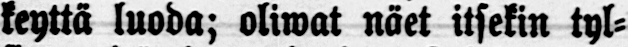keyttä luoda; oliwat näet itsekin tyl-
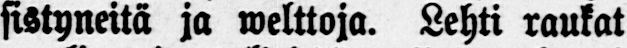sistyneitä ja welttoja. Lehti raukat
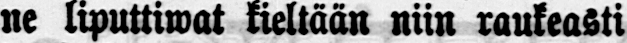ne liputtiwat kieltään niin raukeasti
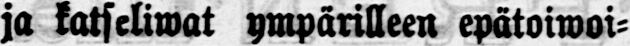ja katseliwat ympärilleen epätoiwoi-
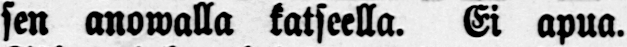sen anowalla katseella. Ei apua.
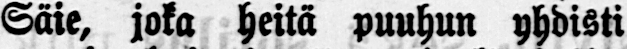Säie, joka heitä puuhun yhdisti
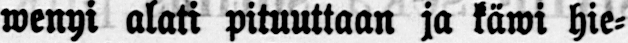wenyi alati pituuttaan ja käwi hie-
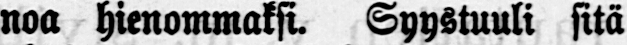noa hienommaksi. Syystuuli sitä
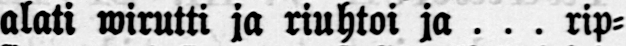alati virutti ja riuhtoi ja . . . rip-
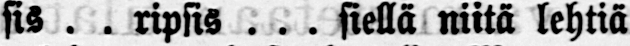sis . . ripsis . . . siellä niitä lehtiä
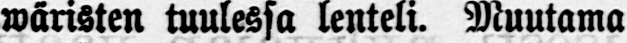wäristen tuulessa lenteli. Muutama
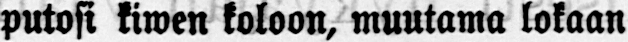putosi kiwen koloon, muutama lokaan
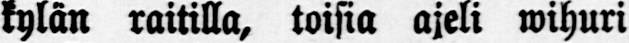kylän raitilla, toisia ajeli wihuri
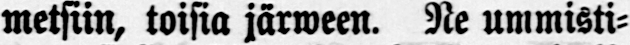metsiin, toisia järween. Ne ummisti-
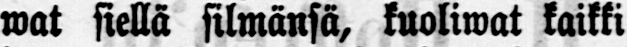wat siellä silmänsä, kuoliwat kaikki
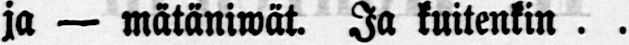ja — mätäniwät. Ja kuitenkin. .
